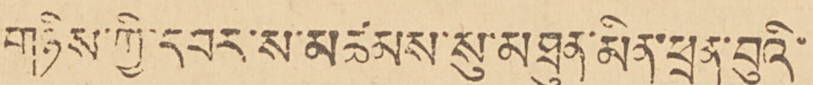གཉིས་ཀྱི་དབར་ས་མཚམས་སུ་མཐུན་མིན་ཕྲན་བུའི་
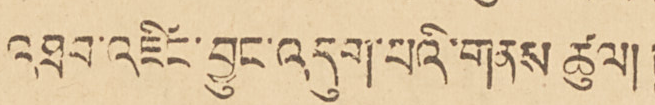འཐབ་འཛིང་བྱུང་འདུག་པའི་གནས་ཚུལ།།
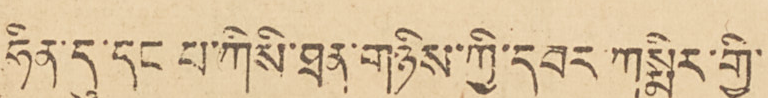ཧིན་དུ་དང པ་ཀིསི་ཐན་གཉིས་ཀྱི་དབར་ཀསྨིར་གྱི་
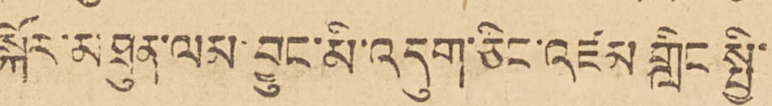སྐོར་མཐུན་ལམ་བྱུང་མི་འདུག་ཅིང་འཛམ་གླིང སྤྱི་
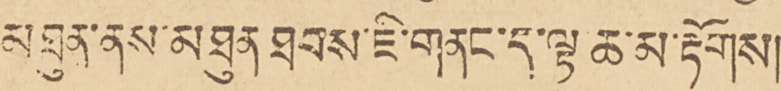མཐུན་ནས་མཐུན ཐབས་ཇི་གནང་ད་ལྟ ཆ་མ་རྟོགས།།
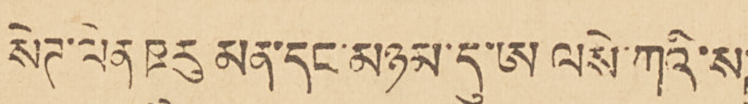སེཊ་ལེན ཋུརུ མན་དང་མཉམ་དུ་ཨ ལསེ་ཀའི་ས་
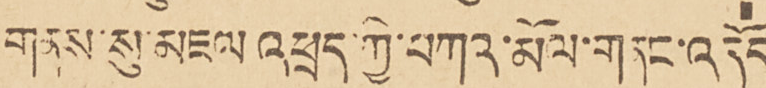གནས་སུ་མཇལ འཕྲད་ཀྱི་བཀའ་མོལ་གནང་འདོད་
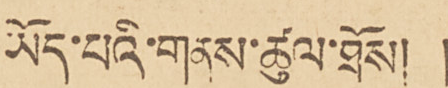ཡོད་པའི་གནས་ཚུལ་ཐོས། །
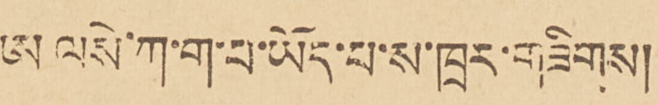ཨ ལསེ་ཀ་ག་བ་ཡོད་པ་ས་ཁྲར་གཟིགས།
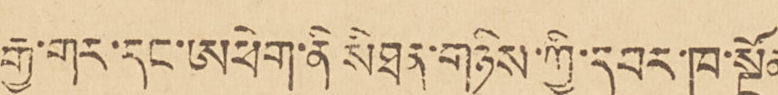རྒྱ་གར་དང་ཨཕེག་ནི སིཐན་གཉིས་གྱི་དབར་ཁ་སྔོན་
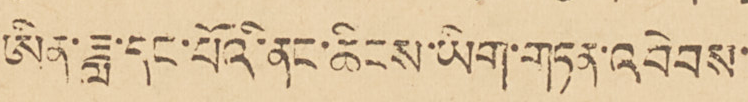ཨིན་ཟླ དང་པོའི་ནང་ཆིངས་ཡིག་གཏན་འབེབས་
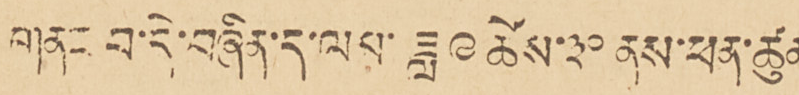གནང བ་དེ་བཞིན་ད་ལམ་ཟླ་ ༩ ཚེས་ ༣༠ ནས་ཕན་ཚུན་
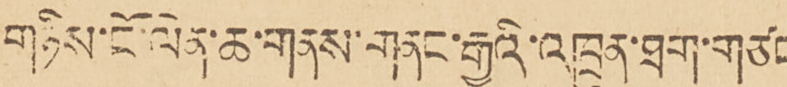གཉིས་ངོ་ལེན་ཆ་གནས་གནང་རྒྱུའི་འཁྲུན་ཐག་གཙང་
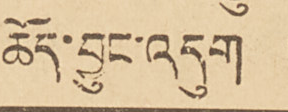ཆོད་བྱུང་འདུག །
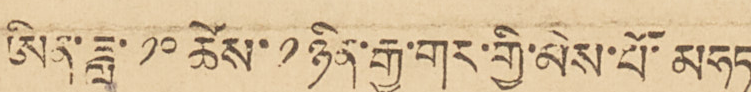ཨིན་ཟླ་ ༡༠ ཚེས་ ༡ ཉིན་རྒྱ་གར་མེས་པོ་མཧཏ་
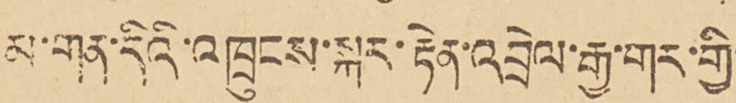མ་གན་དིའི་འཁྲུངས་སྐར་རྟེན་འབྲེལ་རྒྱ་གར་གྱི་
